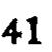41
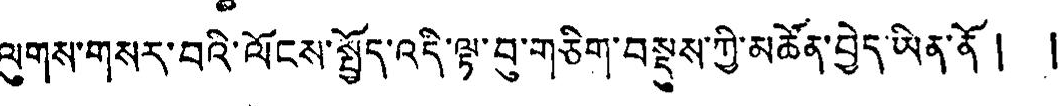ལུགས་གསར་བའི་ལོངས་སྤྱོད་འདི་ལྟ་བུ་གཅིག་བསྡུས་ཀྱི་མཚོན་བྱེད་ཡིན་ནོ ། །
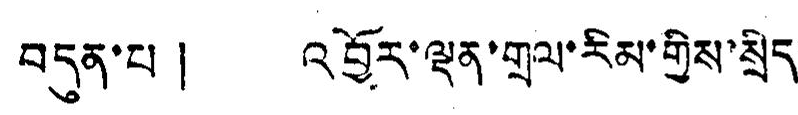བདུན་པ ། འབྱོར་ལྡན་གྲལ་རིམ་གྱིས་སྲིད་
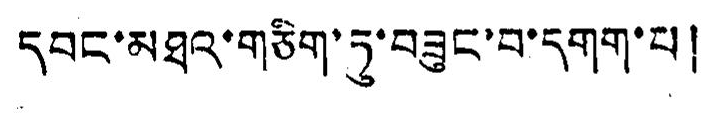དབང་མཐའ་གཅིག་ཏུ་བཟུང་བ་དགག་པ།
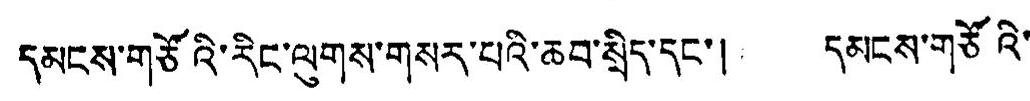དམངས་གཙོའི་རིང་ལུགས་གསར་པའི་ཆབ་སྲིད་དང་། དམངས་གཙོའི་
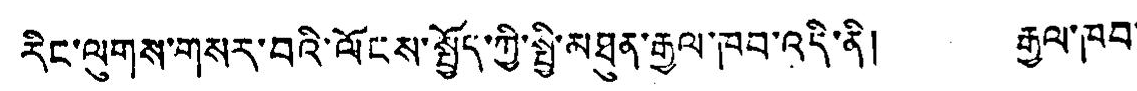རིང་ལུགས་གསར་བའི་ལོངས་སྤྱོད་ཀྱི་སྤྱི་མཐུན་རྒྱལ་ཁབ་འདི་ནི། རྒྱལ་ཁབ་
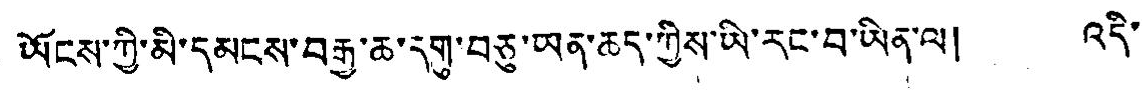ཡོངས་ཀྱི་མི་དམངས་བརྒྱ་ཆ་དགུ་བཅུ་ཡན་ཆད་ཀྱིས་ཡི་རང་བ་ཡིན་ལ། འདི་
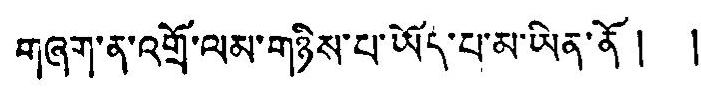གཞག་ན་འགྲོ་ལམ་གཉིས་པ་ཡོད་པ་མ་ཡིན་ནོ། །
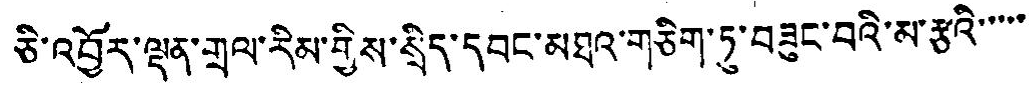ཅི་འབྱོར་ལྡན་གྲལ་རིམ་གྱིས་སྲིད་དབང་མཐའ་གཅིག་ཏུ་བཟུང་བའི་མ་རྩའི་་་་་
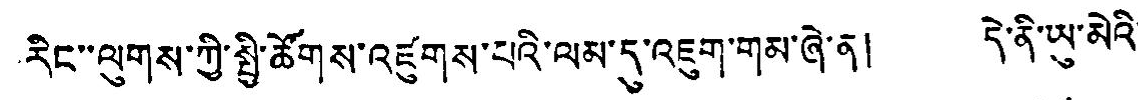རིང་་ལུས་ཀྱི་སྤྱི་ཚོགས་འཛུགས་པའི་ལམ་དུ་འཇུག་གམ་ཞེ་ན། དེ་ནི་ཡུ་མེའི་
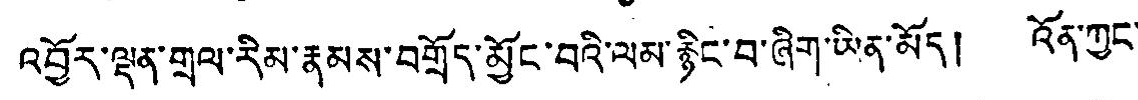འབྱོར་ལྡན་གྲལ་རིམ་རྣམས་བགྲོད་མྱོང་བའི་ལམ་རྙིང་བ་ཞིག་ཡིན་མོད། འོན་ཀྱང་
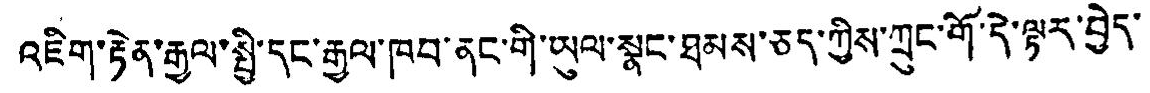འཇིག་རྟེན་རྒྱལ་སྤྱི་དང་རྒྱལ་ཁབ་ནང་གི་ཡུལ་སྣང་ཐམས་ཅད་ཀྱིས་ཀྲུང་གོ་དེ་ལྟར་བྱེད་
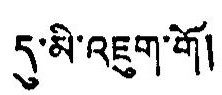དུ་མི་འཇུག་གོ།
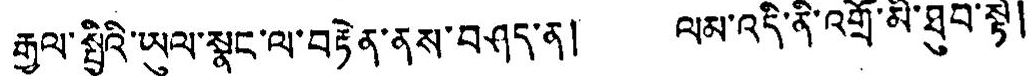རྒྱལ་སྤྱིའི་ཡུལ་སྣང་ལ་བརྟེན་ནས་བཤད་ན། ལམ་འདི་ནི་འགྲོ་མི་ཐུབ་སྟེ།
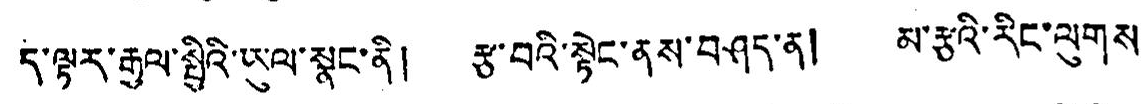ད་ལྟར་རྒྱལ་སྤྱིའི་ཡུལ་སྣང་ནི། རྩ་བའི་སྟེང་ནས་བཤད་ན། མ་རྩའི་རིང་ལུགས་
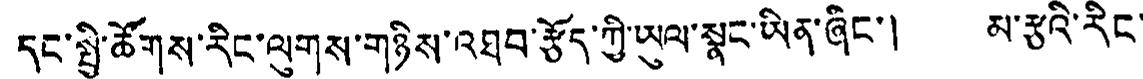དང་སྤྱི་ཚོགས་རིང་ལུགས་གཉིས་འཐབ་རྩོད་ཀྱི་ཡུལ་སྣང་ཡིན་ཞིང་། མ་རྩའི་རིང་
